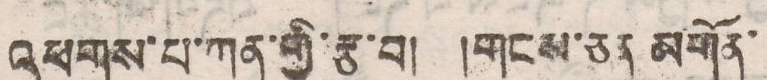འཕགས་པ་ཀུན་གྱི་རྩ་བ། །གངས་ཅན མགོན་
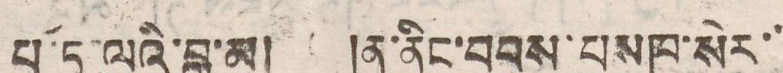པོ་ཏཱ་ལའི་བླ་མ། །ན་ནིང་བབས་པསཁ་སེར་
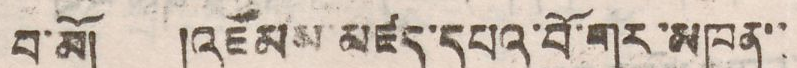བ་མོ། །འཇོམས་མཛད་དཔའ་བོ་གར་མཁན་་
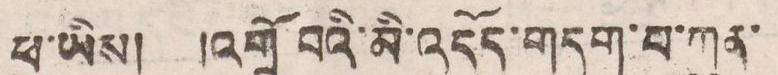ཕ་ཡིས། །འགྲོ བའི་མི་འདོད་གདུག་པ་ཀུན་
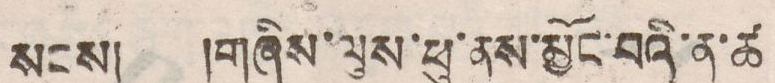སངས། །གཞིས་ལུས་ཕུ་ནུས་མྱོང་བའི་ན་ཚ
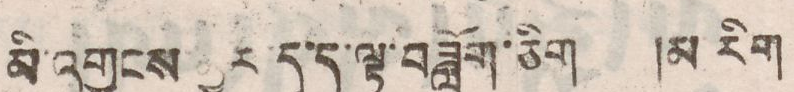མི་འགྱངས་མྱུར་དུ་ད་ལྟ་བཟློག་ཅིག །མ་རིག
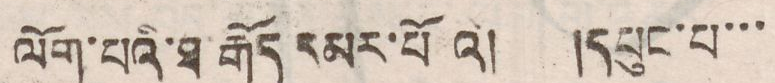ལོག་པའི་ཐ་རྒོད་དམར་པོའི། །དཔུང་པ་་་
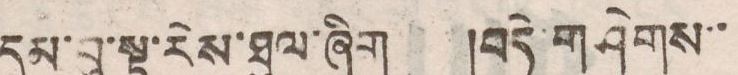དུམ་བུ་སྟ་རེས་ཐུལ་ཞིག །བདེ་གཤེགས་་
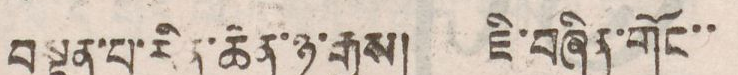བསྟན་པ་རིན་ཆེན་ཉ་རྒྱས། ཇི་བཞིན་གོང་་
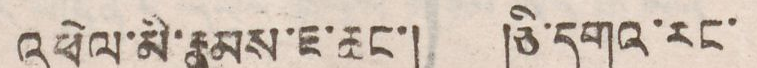འཕེལ་མི་རྣམས་ཇ་ཆང་། །ཅི་དགའ་རང་
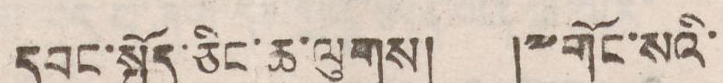དབང་སྤྱོད་ཅིང་ཆ་ལུགས། །༸གོང་སའི་
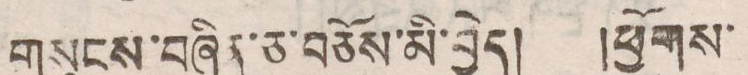གསུངས་བཞིན་ཅ་བཅོས་མི་བྱེད། །ཕྱོགས་
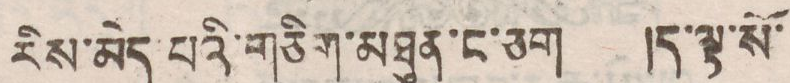རིས་མེད་པའི་གཅིག་མཐུན་ང་ཅག །ད་ལྟ་སོ་
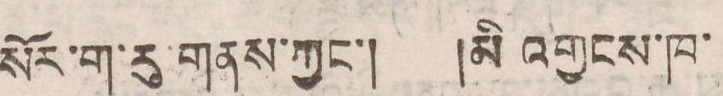སོར་ག་རུ གནས་ཀྱང་། །མི་འགྱངས་ཁ་
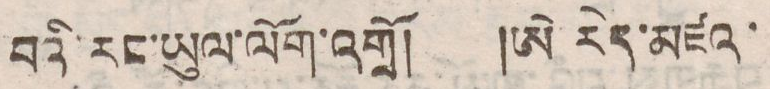བའི་རང་ཡུལ་ལོག་འགྲོ། །ཨེ་རེད་མཛའ་
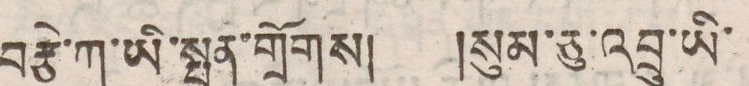བརྩེ་ཀ་ཡི་སྤུན་གྲོགས། །སུམ་ཅུ་འབྲུ་ཡི་
